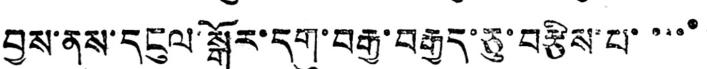བྱས་ནས་དངུལ་སྒོར་དགུ་བརྒྱ་བརྒྱད་ཅུ་བརྩིས་པ་་་་་
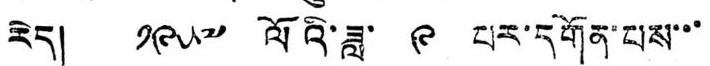རེད། ༡༩༥༧ ལོའི་ཟླ་ ༩ པར་དགོན་པས་་་
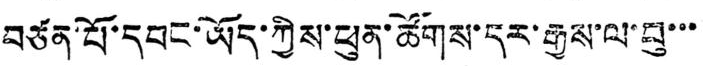བཙན་པོ་དབང་ཡོད་ཀྱིས་ཕུན་ཚོགས་དར་རྒྱས་ལ་བུ་་་
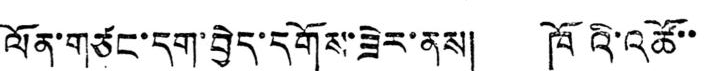ལོན་གཙང་དག་བྱེད་དགོས་ཟེར་ནས། ཁོའི་འཚོ་་
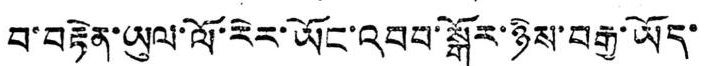བ་བརྟེན་ཡུལ་ལོ་རེར་ཡོང་འབབ་སྒོར་ཉིས་བརྒྱ་ཡོད་
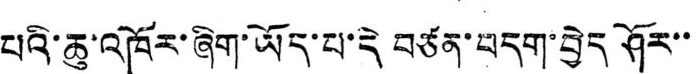པའི་ཆུ་འཁོར་ཞིག་ཡོད་པ་དེ བཙན་བདག་བྱེད ཤོར་་
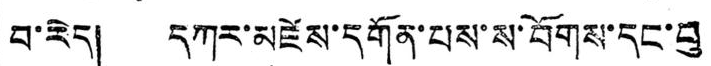བ་རེད། དཀར་མཛེས་དགོན་པས་ས་བོགས་དང་བུ
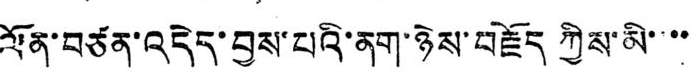ལོན་བཙན་འདེད་བྱས་པའི་ནག་ཉེས་བརྗོད ཀྱིས་མི་་་་
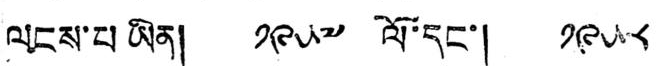ལངས་པ ཡིན། ༡༩༥༧ ལོ་དང་། ༡༩༥༨
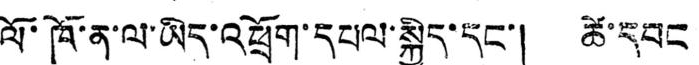ལོ་ཁོ་ན་ལ་ཡིད་འཕྲོག་དཔལ་སྐྱིད་དང་། ཚེ་དབང
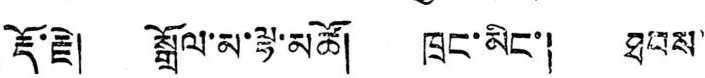རྡོ་རྗེ། སྒྲོལ་མ་ལྷ་མཚོ། ཁྲང་མིང་། ཐབས་
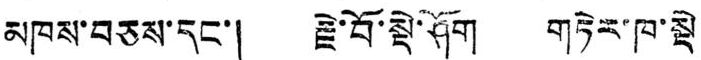མཁས་བཅས་དང་། རྗེ་བོ་སྡེ་ཤོག གཏེར་ཁ་སྡེ
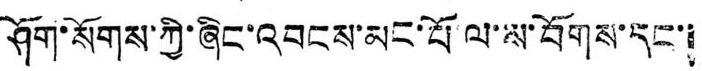ཤོག་སོགས་ཀྱི་ཞིང་འབངས་མང་པོ་ལ་ས་བོགས་དང་།
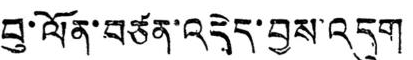བུ་ལོན་བཙན་འདེད་བྱས་འདུག
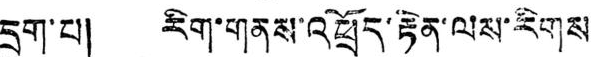དྲུག་པ། རིག་གནས་འཕྲོད་རྟེན་ལས་རིགས
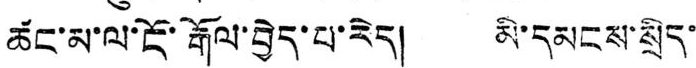ཚང་མ་ལ་ངོ་རྒོལ་བྱེད་པ་རེད། མི་དམངས་སྲིད་
